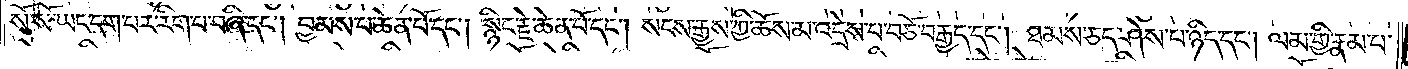སོ་སོ་ཡང་དག་པར་རིག་པ་བཞི་དང༌། བྱམས་པ་ཆེན་པོ་དང༌། སྙིང་རྗེ་ཆེན་པོ་དང༌། སངས་རྒྱས་ཀྱི་ཆོས་མ་འདྲེས་པ་བཅོ་བརྒྱད་དང༌། ཐམས་ཅད་ཤེས་པ་ཉིད་དང༌། ལམ་གྱི་རྣམ་པ་
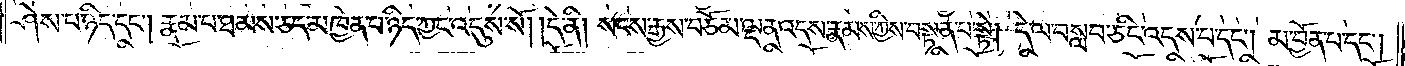ཤེས་པ་ཉིད་དང༌། རྣམ་པ་ཐམས་ཅད་མཁྱེན་པ་ཉིད་ཀྱང་འདུས་སོ། །དེ་ནི། སངས་རྒྱས་བཅོམ་ལྡན་འདས་རྣམས་ཀྱི་བསྟན་པ་སྟེ། དེ་ལ་བསླབ་ཅིང་འདས་པ་དང༌། མ་བྱོན་པ་དང༌།
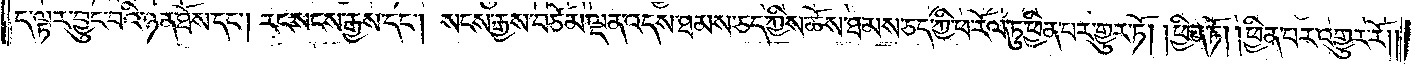ད་ལྟར་བྱུང་བའི་ཉན་ཐོས་དང༌། རང་སངས་རྒྱས་དང༌། སངས་རྒྱས་བཅོམ་ལྡན་འདས་ཐམས་ཅད་ཀྱིས་ཆོས་ཐམས་ཅད་ཀྱི་ཕ་རོལ་ཏུ་ཕྱིན་པར་གྱུར་ཏོ། །ཕྱིན་ཏོ། །ཕྱིན་པར་འགྱུར་རོ། །
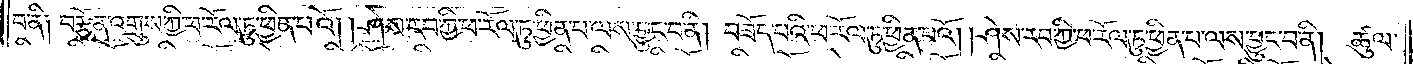བ་ནི། བརྩོན་འགྲུས་ཀྱི་ཕ་རོལ་ཏུ་ཕྱིན་པའོ། །ཤེས་རབ་ཀྱི་ཕ་རོལ་ཏུ་ཕྱིན་པ་ལས་བྱུང་བ་ནི། བཟོད་པའི་ཕ་རོལ་ཏུ་ཕྱིན་པའོ། །ཤེས་རབ་ཀྱི་ཕ་རོལ་ཏུ་ཕྱིན་པ་ལས་བྱུང་བ་ནི། ཚུལ་
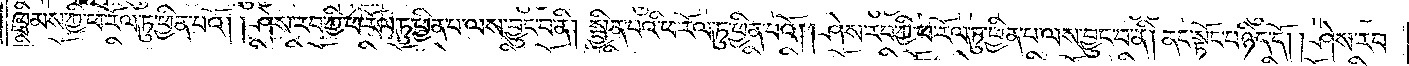ཁྲིམས་ཀྱི་ཕ་རོལ་ཏུ་ཕྱིན་པའོ། །ཤེས་རབ་ཀྱི་ཕ་རོལ་ཏུ་ཕྱིན་པ་ལས་བྱུང་བ་ནི། སྦྱིན་པའི་ཕ་རོལ་ཏུ་ཕྱིན་པའོ། །ཤེས་རབ་ཀྱི་ཕ་རོལ་ཏུ་ཕྱིན་པ་ལས་བྱུང་བ་ནི། ནང་སྟོང་པ་ཉིད་དོ། །ཤེས་རབ་
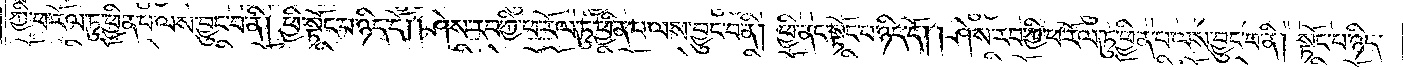ཀྱི་ཕ་རོལ་ཏུ་ཕྱིན་པ་ལས་བྱུང་བ་ནི། ཕྱི་སྟོང་པ་ཉིད་དོ། །ཤེས་རབ་ཀྱི་ཕ་རོལ་ཏུ་ཕྱིན་པ་ལས་བྱུང་བ་ནི། ཕྱི་ནང་སྟོང་པ་ཉིད་དོ། །ཤེས་རབ་ཀྱི་ཕ་རོལ་ཏུ་ཕྱིན་པ་ལས་བྱུང་བ་ནི། སྟོང་པ་ཉིད་
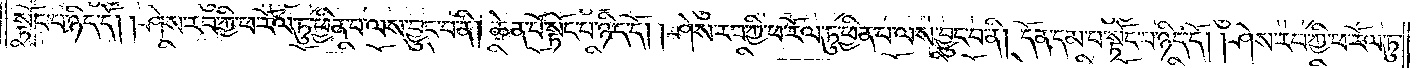སྟོང་པ་ཉིད་དོ། །ཤེས་རབ་ཀྱི་ཕ་རོལ་ཏུ་ཕྱིན་པ་ལས་བྱུང་བ་ནི། ཆེན་པོ་སྟོང་པ་ཉིད་དོ། །ཤེས་རབ་ཀྱི་ཕ་རོལ་ཏུ་ཕྱིན་པ་ལས་བྱུང་བ་ནི། དོན་དམ་པ་སྟོང་པ་ཉིད་དོ། །ཤེས་རབ་ཀྱི་ཕ་རོལ་ཏུ་
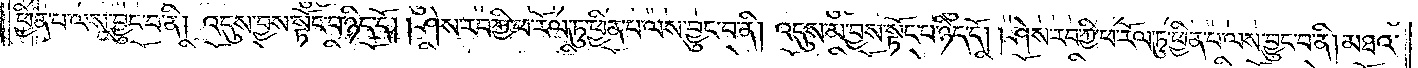ཕྱིན་པ་ལས་བྱུང་བ་ནི། འདུས་བྱས་སྟོང་པ་ཉིད་དོ། །ཤེས་རབ་ཀྱི་ཕ་རོལ་ཏུ་ཕྱིན་པ་ལས་བྱུང་བ་ནི། འདུས་མ་བྱས་སྟོང་པ་ཉིད་དོ། །ཤེས་རབ་ཀྱི་ཕ་རོལ་ཏུ་ཕྱིན་པ་ལས་བྱུང་བ་ནི། མཐའ་
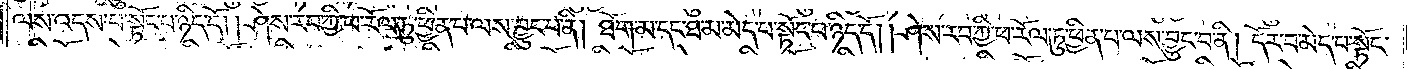ལས་འདས་པ་སྟོང་པ་ཉིད་དོ། །ཤེས་རབ་ཀྱི་ཕ་རོལ་ཏུ་ཕྱིན་པ་ལས་བྱུང་བ་ནི། ཐོག་མ་དང་ཐ་མ་མེད་པ་སྟོང་པ་ཉིད་དོ། །ཤེས་རབ་ཀྱི་ཕ་རོལ་ཏུ་ཕྱིན་པ་ལས་བྱུང་བ་ནི། །དོར་བ་མེད་པ་སྟོང་
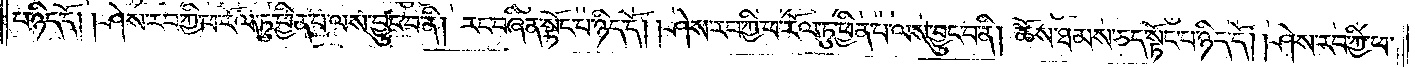པ་ཉིད་དོ། །ཤེས་རབ་ཀྱི་ཕ་རོལ་ཏུ་ཕྱིན་པ་ལས་བྱུང་བ་ནི། རང་བཞིན་སྟོང་པ་ཉིད་དོ། །ཤེས་རབ་ཀྱི་ཕ་རོལ་ཏུ་ཕྱིན་པ་ལས་བྱུང་པ་ནི། ཆོས་ཐམས་ཅད་སྟོང་པ་ཉིད་དོ། །ཤེས་རབ་ཀྱི་ཕ་
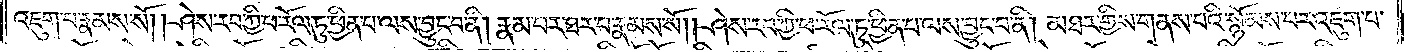འཇུག་པ་རྣམས་སོ། །ཤེས་རབ་ཀྱི་ཕ་རོལ་ཏུ་ཕྱིན་པ་ལས་བྱུང་བ་ནི། རྣམ་པར་ཐར་པ་རྣམས་སོ། །ཤེས་རབ་ཀྱི་ཕ་རོལ་ཏུ་ཕྱིན་པ་ལས་བྱུང་བ་ནི། མཐར་གྱིས་གནས་པའི་སྙོམས་པར་འཇུག་པ་
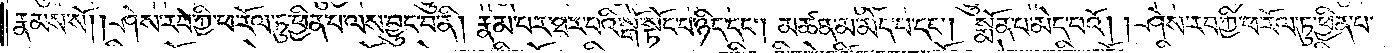རྣམས་སོ། །ཤེས་རབ་ཀྱི་ཕ་རོལ་ཏུ་ཕྱིན་པ་ལས་བྱུང་བ་ནི། རྣམ་པར་ཐར་པའི་སྒོ་སྟོང་པ་ཉིད་དང༌། མཚན་མ་མེད་པ་དང༌། སྨོན་པ་མེད་པའོ། །ཤེས་རབ་ཀྱི་ཕ་རོལ་ཏུ་ཕྱིན་པ་
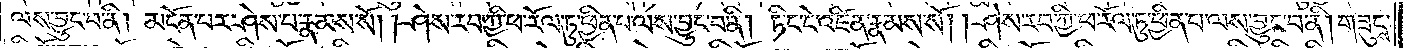ལས་བྱུང་བ་ནི། མངོན་པར་ཤེས་པ་རྣམས་སོ། །ཤེས་རབ་ཀྱི་ཕ་རོལ་ཏུ་ཕྱིན་པ་ལས་བྱུང་བ་ནི། ཏིང་ངེ་འཛིན་རྣམས་སོ། །ཤེས་རབ་ཀྱི་ཕ་རོལ་ཏུ་ཕྱིན་པ་ལས་བྱུང་བ་ནི། གཟུངས་
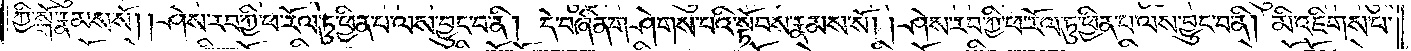ཀྱི་སྒོ་རྣམས་སོ། །ཤེས་རབ་ཀྱི་ཕ་རོལ་ཏུ་ཕྱིན་པ་ལས་བྱུང་བ་ནི། དེ་བཞིན་གཤེགས་པའི་སྟོབས་རྣམས་སོ། །ཤེས་རབ་ཀྱི་ཕ་རོལ་ཏུ་ཕྱིན་པ་ལས་བྱུང་བ་ནི། མི་འཇིགས་པ་
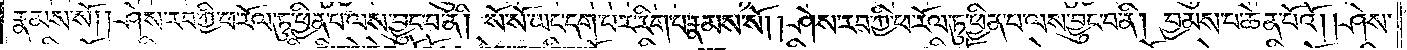རྣམས་སོ། །ཤེས་རབ་ཀྱི་ཕ་རོལ་ཏུ་ཕྱིན་པ་ལས་བྱུང་བ་ནི། སོ་སོ་ཡང་དག་པར་རིག་པ་རྣམས་སོ། །ཤེས་རབ་ཀྱི་ཕ་རོལ་ཏུ་ཕྱིན་པ་ལས་བྱུང་བ་ནི། བྱམས་པ་ཆེན་པོའོ། །ཤེས་
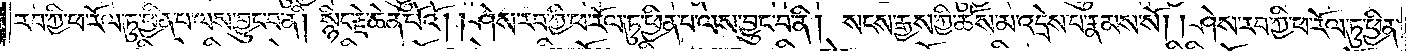རབ་ཀྱི་ཕ་རོལ་ཏུ་ཕྱིན་པ་ལས་བྱུང་བ་ནི། སྙིང་རྗེ་ཆེན་པོའོ། །ཤེས་རབ་ཀྱི་ཕ་རོལ་ཏུ་ཕྱིན་པ་ལས་བྱུང་བ་ནི། སངས་རྒྱས་ཀྱི་ཆོས་མ་འདྲེས་པ་རྣམས་སོ། །ཤེས་རབ་ཀྱི་ཕ་རོལ་ཏུ་ཕྱིན་
